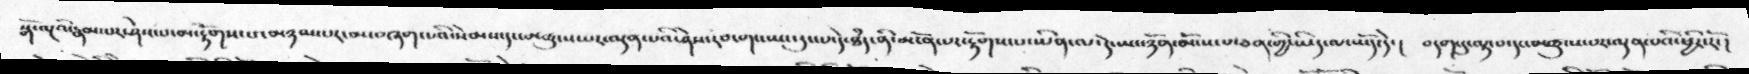སྒོ་ལྔའི་རྣམ་པར་ཤེས་པ་མ་རྟོགས་པ་མཉམ་པར་མ་བཞག་པའི་སེམས་དང་མཚུངས་པར་ལྡན་པའི་ཤེས་རབ་གང་ཡང་རུང་པ་དེ་ཐཾད་ནི་མངོན་པར་རྟོགས་པ་ཡིན་ལ་དེ་ཡང་ཉོན་མོངས་པ་ཅན་གྱི་ཡིད་ལ་ཡོད་དེ་།  བདག་དུ་ལྟ་བ་དང་མཚུངས་པར་ལྡན་པའི་ཕྱིར་རོ་།
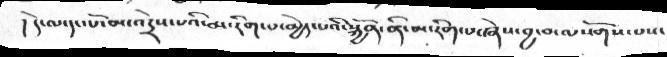།དེ་ལ་དང་པོ་མ་འདྲེས་པའི་མ་རིག་པ་མྱེད་པའི་སྐྱོན་ནི་མ་རིག་པ་ཞེས་བྱ་བ་ལསོགས་པས་
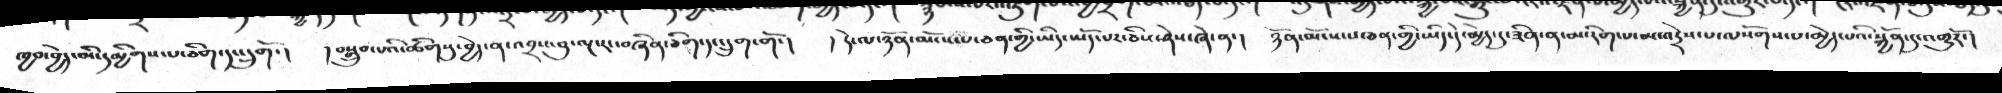ཁྱབ་བྱེད་མི་དམྱིགས་པ་ཅིག་དང་དྲུགོ་།  །བསྒྲུབ་པའི་ཚིགསུ་་བྱེད་ན་འབྲས་བུ་ལྔ་རང་བཞིན་ཅིག་དང་དྲུག་གོ་།  །དེ་ལ་ཉོན་མོངས་པ་ཅན་གྱི་ཡིད་ཡོད་པར་ཅིས་ཤེས་ཞེ་ན་།  ཉོན་མོངས་པ་ཅན་གྱི་ཡིད་དེ་མྱེད་དུ་ཟིན་ན་མ་རིག་པ་མ་འདྲེས་པ་ལསོགས་པ་མྱེད་པའི་སྐྱོན་དུ་འགྱུརོ་།
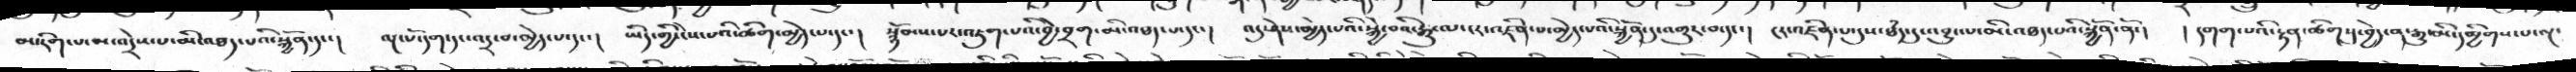མ་རིག་པ་མ་འདྲེས་པ་མི་འཐད་པའི་སྐྱོན་དང་།  ལྔ་པོ་དག་དང་འདྲ་བ་མྱེད་པ་དང་།  ཡིད་གྱི་ངེས་པའི་ཚིག་མྱེད་པ་དང་།  སྙོམས་པར་འཇུག་པའི་བྱེ་བྲག་མི་འཐད་་པ་དང་།  འདུ་ཤེས་མྱེད་པའི་སྐྱེ་བའི་རྒྱུ་ལ་ངར་འཛིན་པ་མྱེད་པའི་སྐྱོན་དུ་འགྱུར་བ་དང་།  ངར་འཛིན་པ་དུས་ཐཾད་དུ་འབྱུང་པ་མི་འཐད་པའི་སྐྱོན་ནོ་།  ། དགག་པའི་རྟན་ཚིགསུ་བྱེད་ན་རྒྱུ་མི་དམྱིགས་པ་ལྔ་
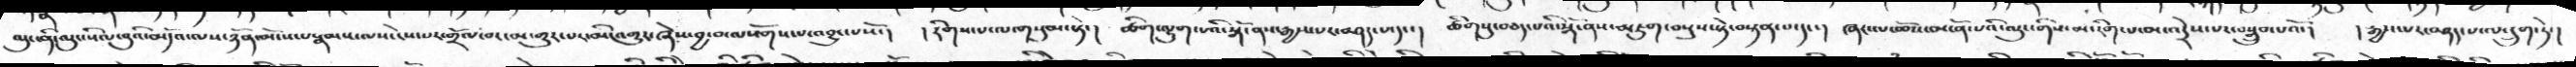ལུང་ནི་ལུང་སིལ་བུའི་མདོའ་ལས་ཉོན་མོངས་པ་རྣམས་ལས་ངེས་པར་གྲོལ་བར་མ་གྱུར་པར་མི་འགྱུར་ཞེས་བྱ་བ་ལསོགས་པ་འབྱུང་པསོ་།  །རིགས་པ་ལ་གསུམ་སྟེ་།  ཚིག་ལྷུག་པའི་སྒོ་ནས་རྒྱས་པར་བཤད་པ་དང་།  ཚིགསུ་བཅད་པའི་སྒོ་ནས་མཇུག་བསྡུས་སྟེ་བསྟན་པ་དང་།  ཞར་ལ་ཆོས་མངོན་པའི་ལུང་གིས་མ་རིག་པ་མ་འདྲེས་པར་བསྒྲུབ་པའོ་།  །རྒྱས་པར་བཤད་པ་ལ་དྲུག་ཏེ་།
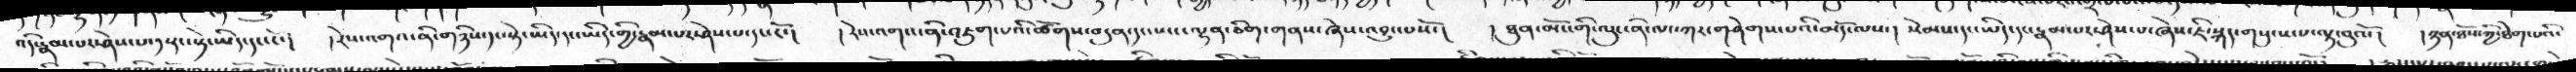འདི་རྣམ་པར་ཤེས་པ་༡་རང་སྟེ་ཡིད་དང་ངོ་།  །རེས་འགའ་ནི་གཉིས་དང་སྟེ་ཡིད་དང་ཡིད་གྱི་རྣམ་པར་ཤེས་པ་དང་ངོ་།  །རེས་འགའ་ནི་འཇུག་པའི་ཚོགས་བདུན་དང་ཡང་ལྷན་ཅིག་གནས་ཞེས་འབྱུང་པསོ་།  །ཐུན་མོང་གི་ལུང་ནི་ལང་ཀར་གཤེགས་པའི་མདོ་ལས་།  སེམས་དང་ཡིད་དང་རྣམ་པར་ཤེས་པ་ཞེས་ཇི་སྐད་གསུངས་པ་ལྟ་བུའོ་།  །ཉན་ཐོས་ཀྱི་ཐེག་པའི་
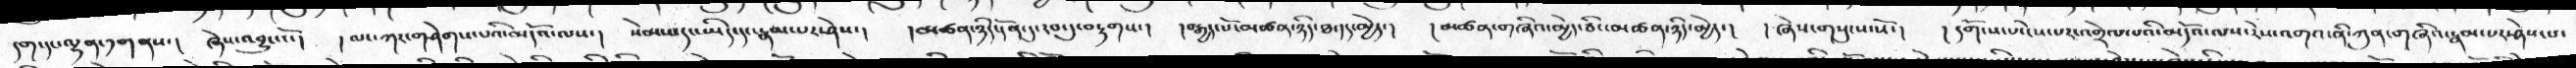དག་དང་ལྷན་༡གནས་་།  ཞེས་འབྱུང་ངོ་།   །ལང་ཀར་གཤེགས་པའི་མདོའ་ལས་།   སེམས་དང་ཡིད་དང་རྣམ་པར་ཤེས་།   །མཚན་ཉིད་དོན་དུ་རབ་དུ་བརྟགས་།   །བརྒྱད་པོ་མཚན་ཉིད་ཐ་དད་མྱེད་།   །མཚན་གཞིའ་མྱེད་ཅིང་མཚན་ཉིད་མྱེད་།  །ཞེས་གསུངས་སོ་།   །དགོངས་པ་ངེས་པར་འགྲེལ་པའི་མདོའ་ལས་རེས་འགའ་ནི་ཀུན་གཞིའ་རྣམ་པར་ཤེས་པ་
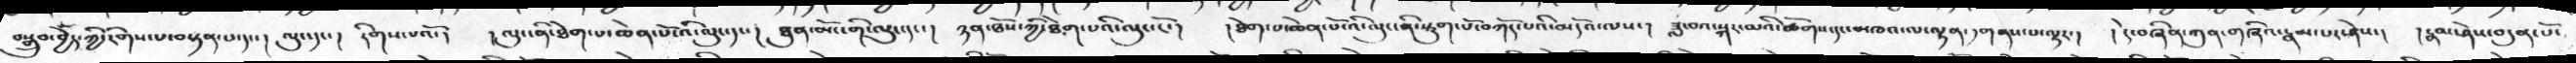བསྒྲུབ་བྱེད་ཀྱི་དགེས་པ་བསྟན་པ་དང་་།  ལུང་དང་།  རིགས་པའོ་།  །ལུང་ནི་ཐིག་པ་ཆེན་པོ་འི་ལུང་དང་།  ཐུན་མོང་གི་ལུང་དང་་།   ཉན་ཐོས་ཀྱི་ཐེག་པའི་ལུང་ངོ་།  །ཐེག་པ་ཆེན་པོ་འི་ལུང་ནི་སྟུག་པོ་བཀོད་པའི་མདོའ་ལས་།  ཟླ་བའ་སྐར་མའི་ཚོགས་དང་མཁའ་ལ་ལྷན་༡གནས་པ་ལྟར་།  །དེ་བཞིན་ཀུན་གཞིའ་རྣམ་པར་ཤེས་།  །རྣམ་ཤེས་བདུན་པོ་
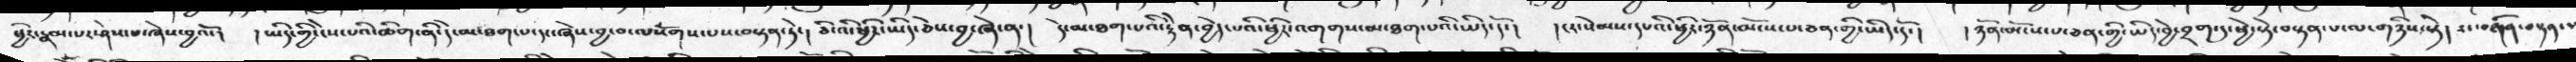ཕྱིར་རྣམ་པར་ཤེས་པ་ཞེས་བྱའོ་།  །ཡིད་གྱི་ངེས་པའི་ཚིན་ནི་དེ་མ་ཐག་པ་དང་ཞེས་བྱ་བ་ལསོགས་པས་བསྟན་ཏེ་།  ཅི་འི་ཕྱིར་ཡིད་ཅེས་བྱ་ཞེ་ན་།  དེ་མ་ཐག་པའི་རྟེན་བྱེད་པའི་ཕྱིར་འགགས་མ་ཐག་པའི་ཡིད་དོ་།  །ངར་སེམས་དཔའི་ཕྱིར་ཉོན་མོངས་པ་ཅན་གྱི་ཡིད་དོ་།   །ཉོན་མོངས་པ་ཅན་གྱི་ཡིད་བྱེ་བྲག་དུ་ཕྱེ་སྟེ་བསྟན་པ་ལ་གཉིས་སྟེ་།  རང་བཞིན་བསྟན་་
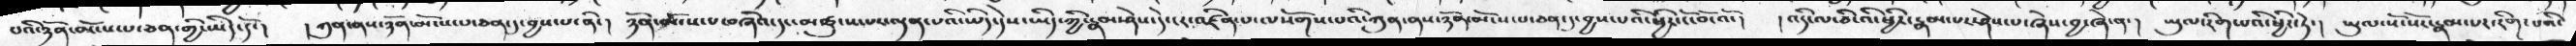པའི་ཉོན་མོངས་པ་ཅན་གྱི་ཡིད་དོ་།   །ཀུན་ནས་ཉོན་མོངས་པ་ཅན་དུ་བྱས་པ་ནི་།  ཉོན་མོངས་པ་བཞིའ་དང་མཚུངས་པར་ལྡན་པའི་ཡིད་དེས་ཡིད་ཀྱི་རྣམ་ཤེས་དེ་ངར་འཛིན་པ་ལསོགས་པའི་ཀུན་ནས་ཉོན་མོངས་པ་ཅན་དུ་བྱས་པའི་ཕྱིར་ངོ་བོ་འོ་།   །འདི་ལ་ཅི་འི་ཕྱིར་རྣམ་པར་ཤེས་པ་ཞེས་བྱ་ཞེ་ན་།   ཡུལ་རིག་པའི་ཕྱིར་ཏེ་།   ཡུལ་སོ་སོར་རྣམ་པར་རིག་པའི་་
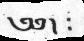༄༅།  ༴
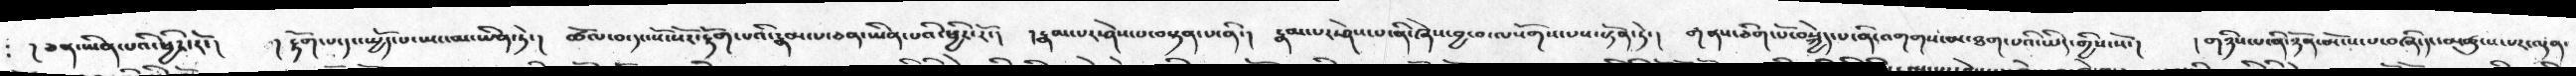༴ །ཅན་ཡིན་པའི་ཕྱིར་རོ་།  །རྟོག་པ་དང་སྤྱོད་པ་ཡང་མ་ཡིན་ཏེ་།  ཚོལ་བ་དང་སོ་སོར་རྟོག་པའི་རྣམ་པ་ཅན་་ཡིན་པའི་ཕྱིར་རོ་།  །རྣམ་པར་ཤེས་པ་བསྟན་པ་ནི་།  རྣམ་པར་ཤེས་པ་ནི་ཞེས་བྱ་བ་ལསོགས་པས་སྟོན་ཏེ་།  གནས་ཅིག་པོ་བསྐྱེད་པ་ནི་འགགས་མ་ཐག་པའི་ཡིད་གྱིས་སོ་།  །གཉིས་པ་ནི་ཉོན་མོངས་པ་བཞི་དང་མཚུངས་པར་ལྡན་
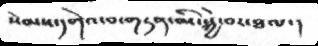སེམས་དགེའ་བ་གཏན་མི་སྐྱེ་བར་ཐལ་།
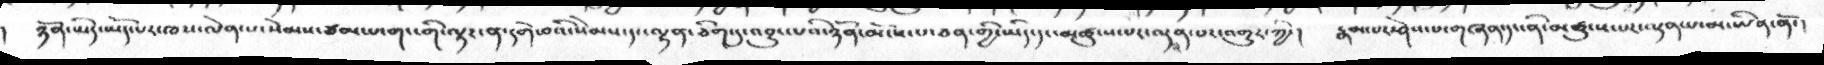།  ཉོན་ཡིད་ཡོད་པར་ཁས་ལེན་པ་སེམས་ཙམ་པ་གང་གི་ལྟར་ན་དགེ་བའི་སེམས་དང་ལྷན་ཅིག་དུ་འབྱུང་པའི་ཉོན་མོངས་པ་ཅན་གྱི་ཡིད་དང་མཚུངས་པར་ལྡན་པར་འགྱུར་ཀྱི་།  རྣམ་པར་ཤེས་པ་གཞན་དང་ནི་མཚུངས་པར་ལྡན་པ་མ་ཡིན་ནོ་།
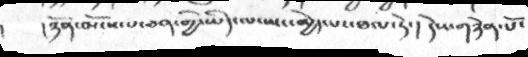།    །ཉོན་མོངས་པ་ཅན་གྱི་ཡིད་ལ་ཡང་མྱེད་པར་ཐལ་ཏེ་།  དེས་གཉེན་པོ་
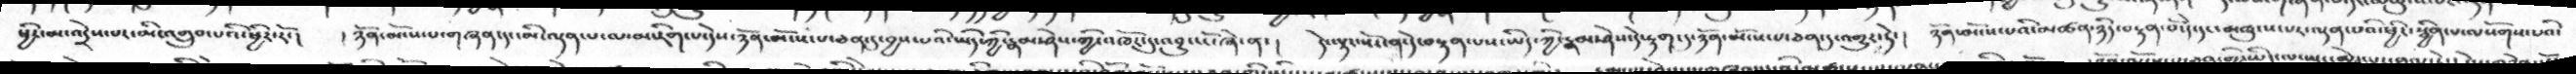ཕྱིར་མ་འདྲེས་པར་མི་འགྲུབ་པའི་ཕྱིར་རོ་།  །ཉོན་མོངས་པ་གཞན་དང་མི་ལྡན་པ་ལ་མ་རིག་པ་དེས་ཉོན་མོངས་པ་ཅན་དུ་བྱས་པའི་ཡིད་ཀྱི་རྣམ་ཤེས་ཀྱི་འཁོར་དུ་འབྱུང་ངོ་ཞེ་ན་།  དེ་ལྟར་སོང་ན་དེ་བསྟན་པས་ཡིད་ཀྱི་རྣམ་ཤེས་དེ་རྟག་དུ་ཉོན་མོངས་པ་ཅན་དུ་འགྱུར་ཏེ་།  ཉོན་མོངས་པའི་མཚན་ཉིད་བརྟན་པོ་དེ་དང་མཚུངས་པར་ལྡན་པའི་ཕྱིར་སྦྱིན་པ་ལསོགས་པའི་
